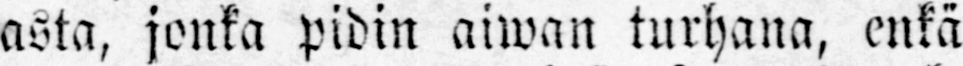asta, jonka pidin aiwan turhana, enkä
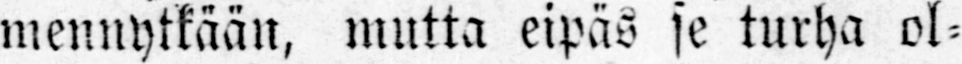mennytkään, mutta eipäs se turha ol-
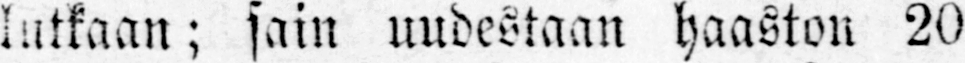lutkaan; sain uudestaan haaston 20
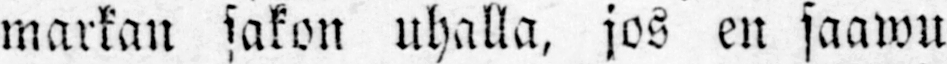markan sakon uhalla, jos en saawu
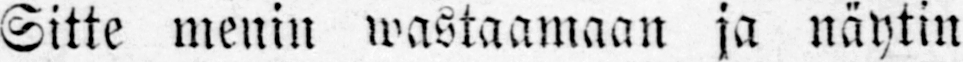Sitte menin wastaamaan ja näytin
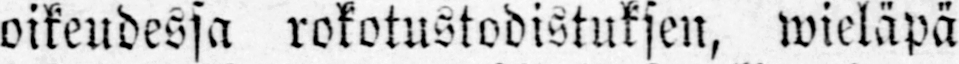oikeudessa rokotustodistuksen, wieläpä
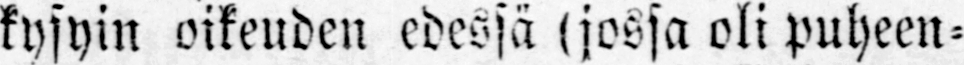kysyin oikeuden edesä (jossa oli puheen-
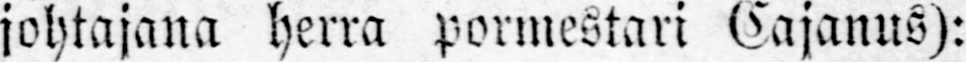johtajana herra pormestari Cajanus):
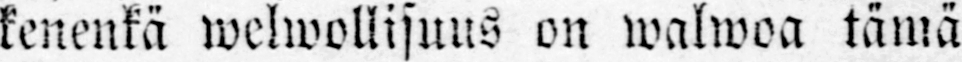kenenkä welwollisuus on walwoa tämä
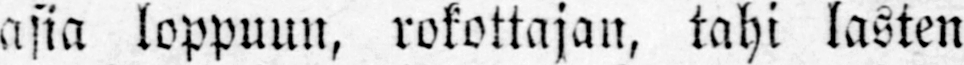asia loppuun, rokottajan, tahi lasten
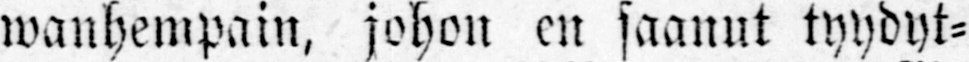wanhempain, johon en saanut tyydyt-
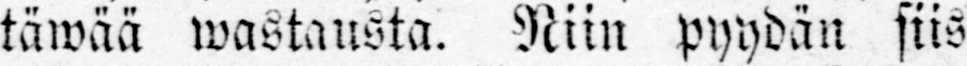täwää wastausta. Niin pyydän siis
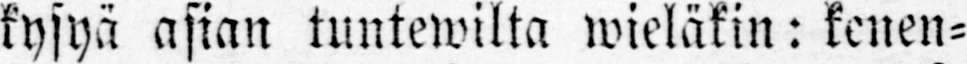kysyä asian tuntewilta wieläkin: kenen-
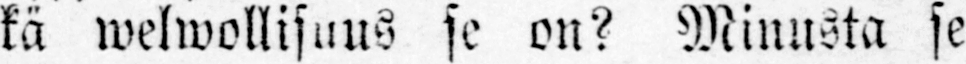kä welwollisuus se on? Minusta se
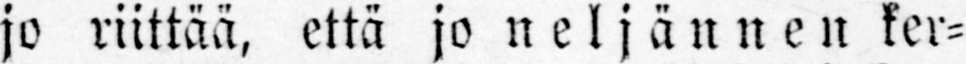jo riittää, että jo neljännen ker-
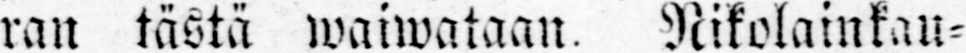ran tästä waiwataan. Nikolainkau-
